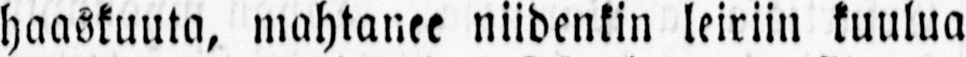haaskuuta, mahtanee niidenkin leiriin kuulua
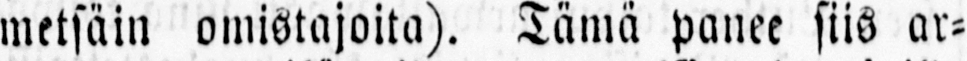metsäin omistajoita). Tämä panee siis ar-
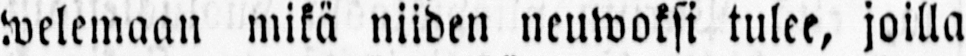welemaan mikä niiden neuwoksi tulee, joilla
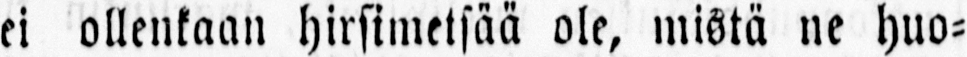ei ollenkaan hirsimetsää ole, mistä ne huo-
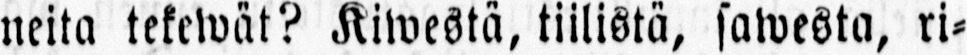neita tekewät? Kiwestä, tiilistä, sawesta, ri-
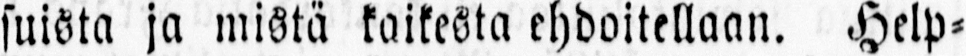suista ja mistä kaikesta ehdoitellaan. Help-
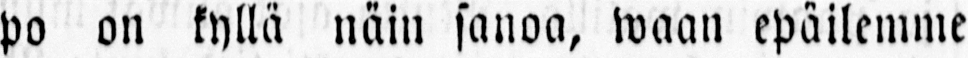po on kyllä näin sanoa, waan epäilemme
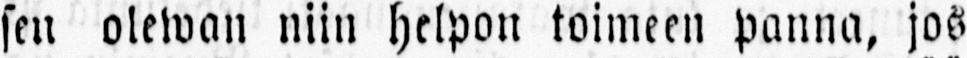sen olewan niin helpon toimeen panna, jos
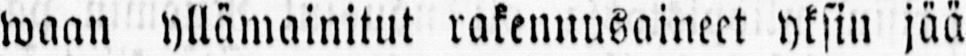waan yllämainitut rakennusaineet yksin jää
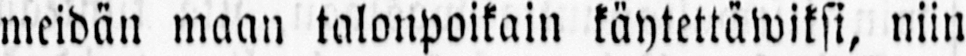meidän maan talonpoikain käytettäwiksi, niin
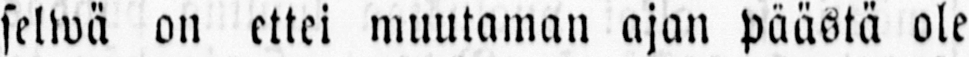selwä on ettei muutaman ajan päästä ole
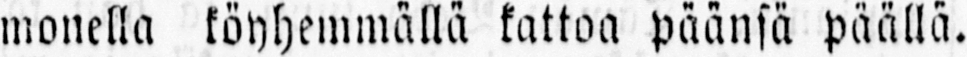monella köyhemmällä kattoa päänsä päällä.
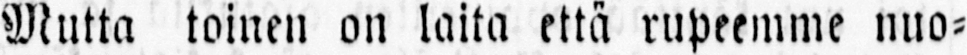mutta toinen on laita että rupeemme nuo-
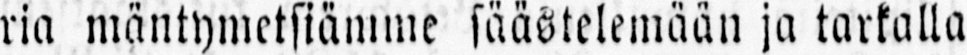ria mäntymetsiämme säästelemään ja tarkalla
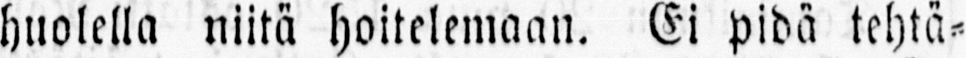huolella niitä hoitelemaan. Ei pidä tehtä-
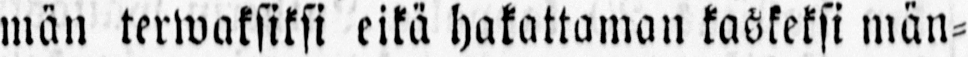män terwaksiksi eikä hakattaman kaskeksi män-
